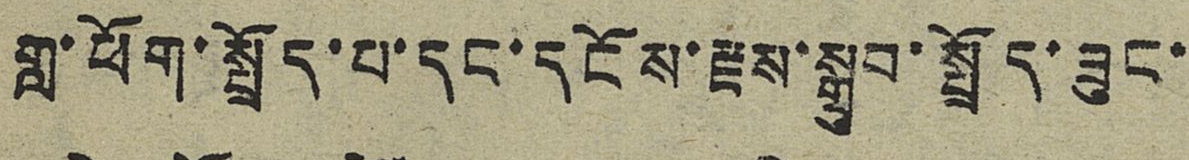གླ་ཕོག་སྤྲོད་པ་དང་དངོས་རྫས་སྒྲུབ་སྤྲོད་ཟུང་
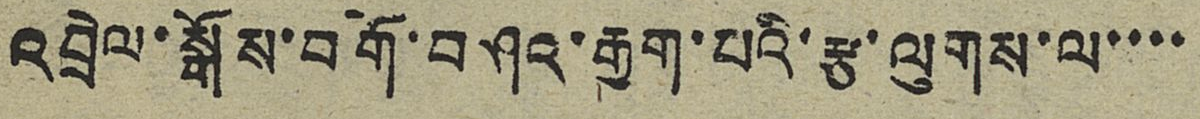འབྲེལ་སྒོས་བགོ་བཤའ་རྒྱག་པའི་རྩ་ལུགས་ལ་་་་
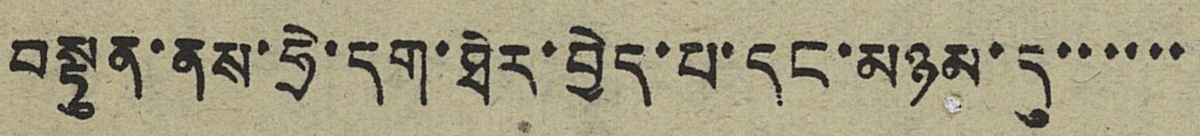བསྟུན་ནས་ཧྲེ་དག་ཐེར་བྱེད་པ་དང་མཉམ་དུ་་་་་་
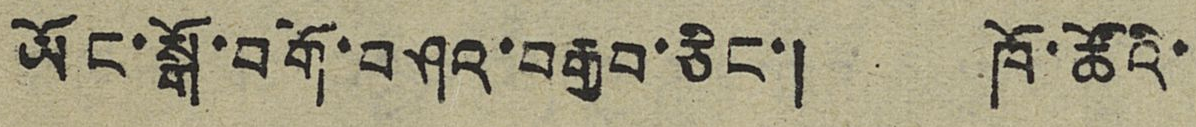ཡོང་སྒོ་བགོ་བཤའ་བརྒྱབ་ཅིང་། ཁོ་ཚོའི་
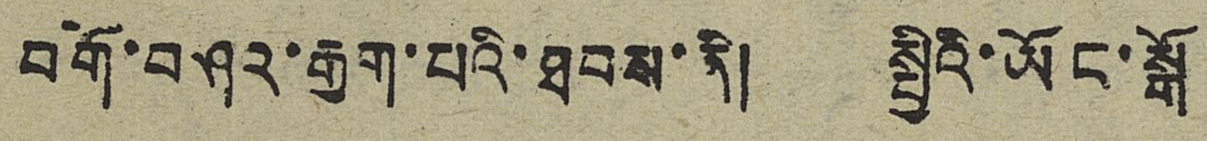བགོ་བཤའ་རྒྱག་པའི་ཐབས་ནི། སྤྱིའི་ཡོང་སྒོ
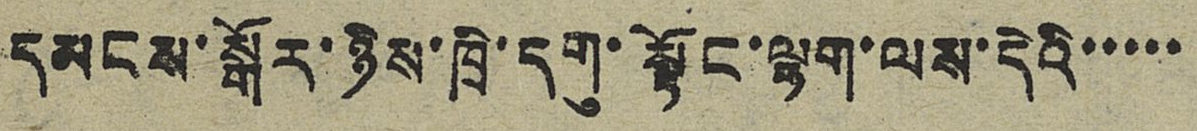དམངས་སྒོར་ཉིས་ཁྲི་དགུ་སྟོང་ལྷག་ལས་དེའི་་་་་
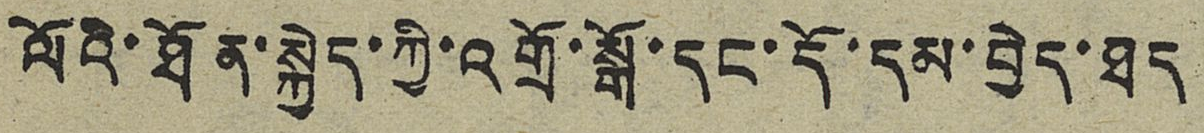ལོའི་ཐོན་སྐྱེད་ཀྱི་འགྲོ་སྒོ་དང་དོ་དམ་བྱེད་ཐད
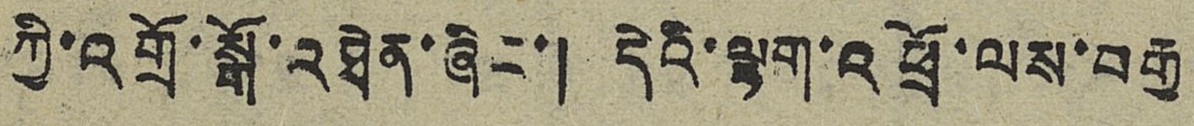ཀྱི་འགྲོ་སྒོ་འཐེན་ཞིང་། དེའི་ལྷག་འཕྲོ་ལས་བརྒྱ
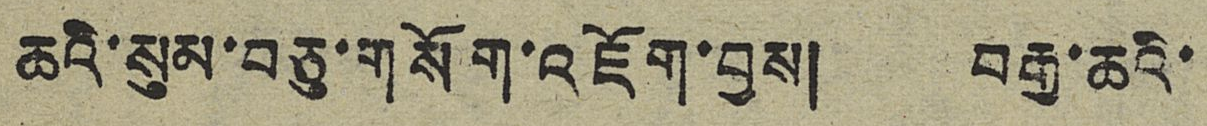ཆའི་སུམ་བཅུ་གསོག་འཇོག་བྱས། བརྒྱ་ཆའི་
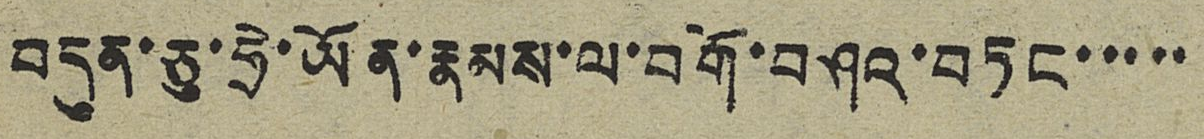བདུན་ཅུ་ཧྲེ་ཡོན་རྣམས་ལ་བགོ་བཤའ་བཏང་་་་་
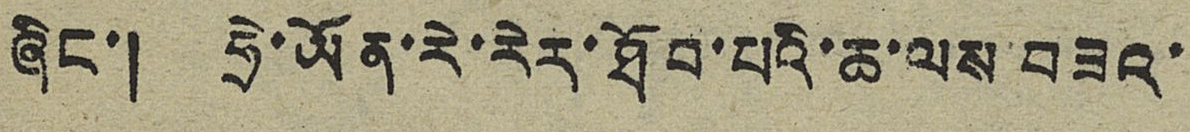ཞིང་། ཧྲེ་ཡོན་རེ་རེར་ཐོབ་པའི་ཆ་ལས་བཟའ་
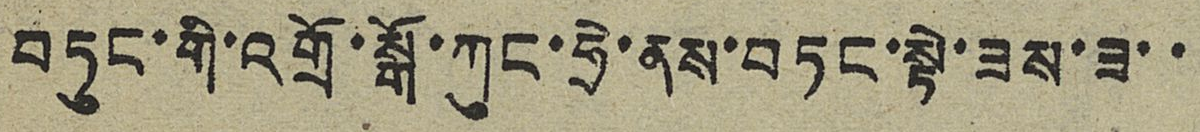བཏུང་གི་འགྲོ་སྒོ་ཀུང་ཧྲེ་ནས་བཏང་སྟེ་ཟས་ཟ་་
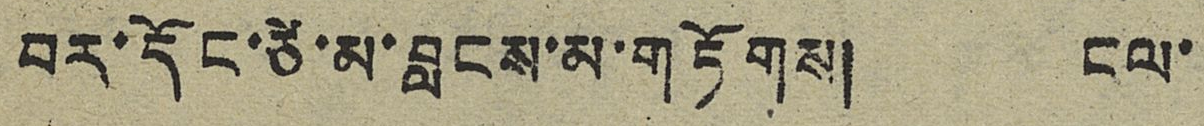བར་དོང་ཙེ་མ་བླངས་མ་གཏོགས། ངལ་
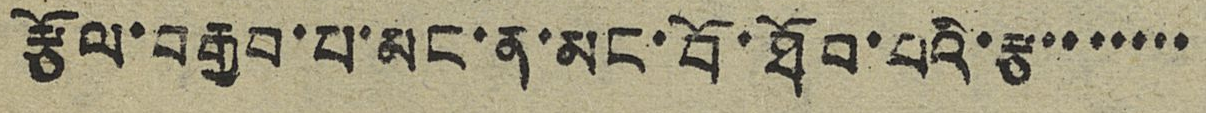རྩོལ་བརྒྱབ་པ་མང་ན་མང་བོ་ཐོབ་པའི་རྩ་་་་་་་
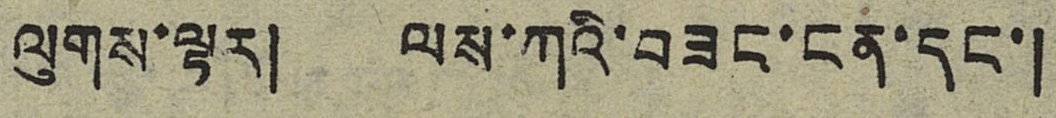ལུགས་ལྟར། ལས་ཀའི་བཟང་ངན་དང་།
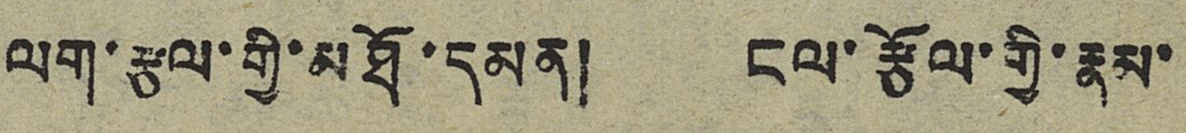ལག་རྩལ་གྱི་མཐོ་དམན། ངལ་རྩོལ་གྱི་རྣམ་
